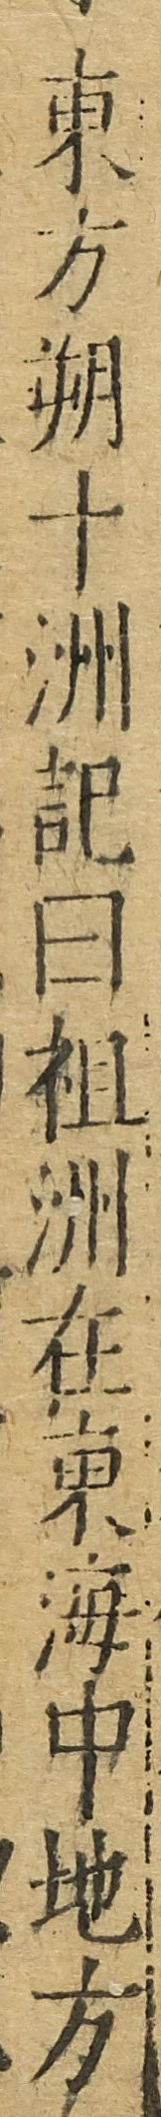東方朔十洲記曰祖洲在東海中地方
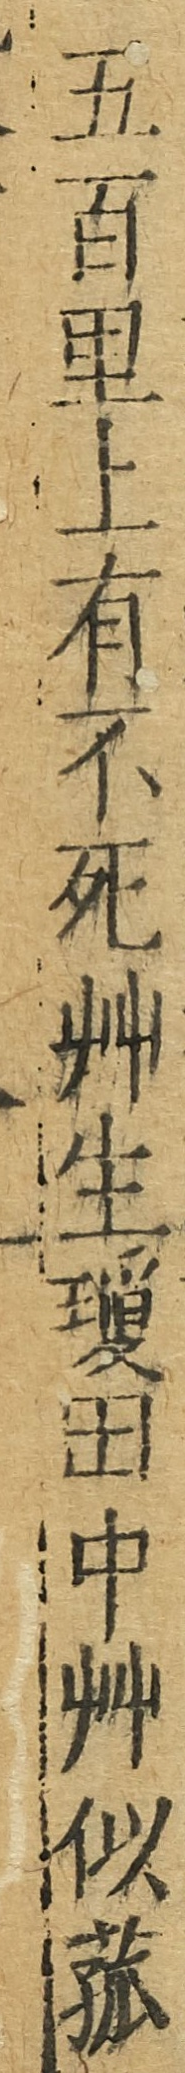五百里上有不死艸生瓊田中艸似菰
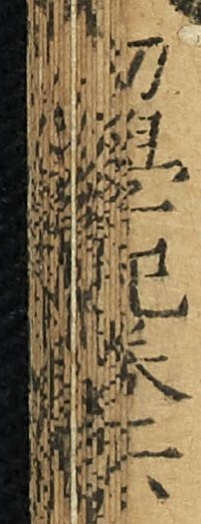初學記卷六
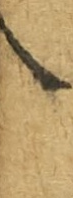八
